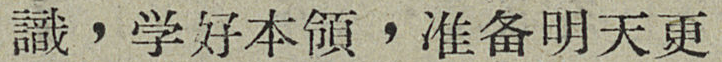識，学好本領，准备明天更
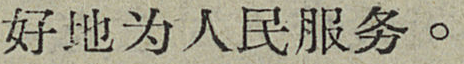好地为人民服务。
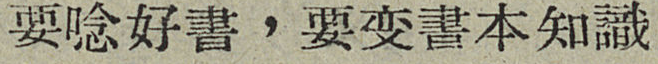要唸好書，要变書本知識
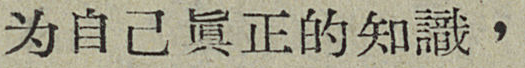为自己眞正的知識，
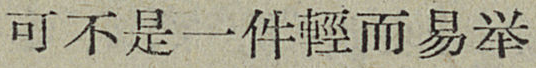可不是一件輕而易举
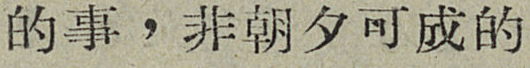的事，非朝夕可成的
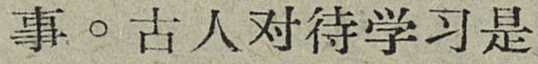事。古人对待学习是
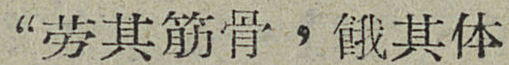“劳其筋骨，餓其体
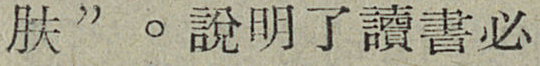肤”。說明了讀書必
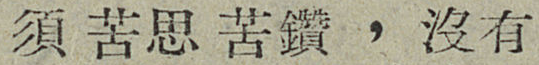須苦思苦鑽，沒有
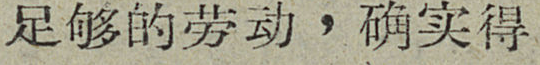足够的劳动，确实得
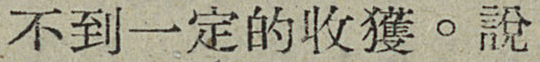不到一定的收穫。說
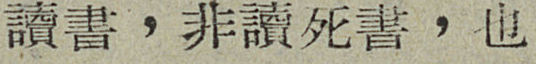讀書，非讀死書，也
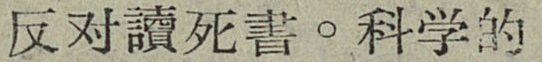反对讀死書。科学的
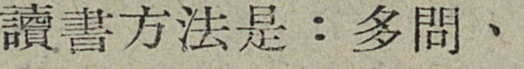讀書方法是：多問、
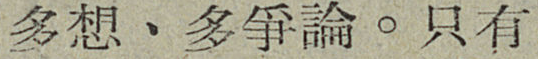多想、多爭論。只有
